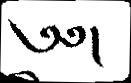༄༅།
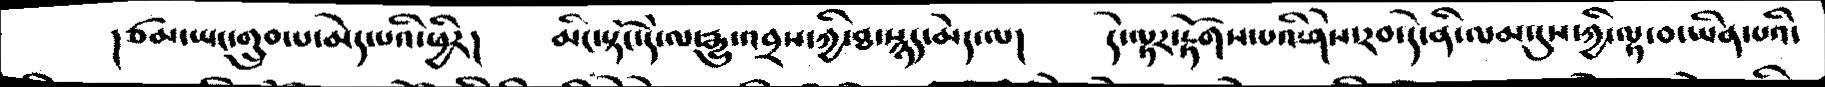།ཙམ་ཡང་གྲུབ་པ་མེད་པའི་ཕྱིར།   མིང་སྟོང་དེ་ལ་རྒྱུ་འབྲས་ཀྱི་ཐ་སྙད་མེད་ལ།    དེ་ལྟར་རྟོགས་པའི་ཤེས་རབ་དེ་ནི་ལམ་དུས་ཀྱི་ལྟ་བ་ཡིན་པའི་
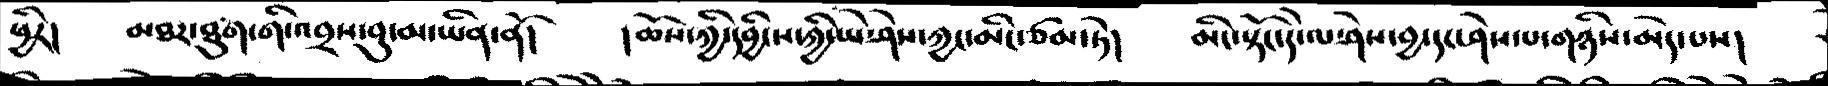ཕྱིར།    མཐར་ཐུག་གི་འབྲས་བུ་མ་ཡིན་ནོ།   །ཆོས་ཀྱི་དབྱིངས་ཀྱི་ཡེ་ཤེས་ཀྱང་མིང་ཙམ་ཏེ།   མིང་སྟོང་དེ་ལ་ཤེས་བྱ་དང་ཤེས་པ་གཉིས་མེད་པས།
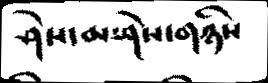ཤེས་མ་ཤེས་གཉིས
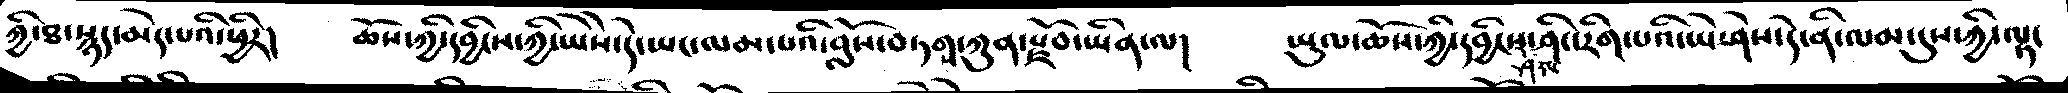ཀྱི་ཐ་སྙད་མེད་པའི་ཕྱིར།     ཆོས་ཀྱི་དབྱིངས་ཀྱི་ཡཻས་དེ་ཡང་ལམ་པའི་བློས་བཏགས་ཀུན་རྫོབ་ཡིན་ལ།   ཡུལ་ཆོས་ཀྱི་དབྱིངས་ཤེས་ཤིང་རིག་པའི་ཡེ་ཤེས་དེ་ནི་ལམ་དུས་ཀྱི་ལྟ་
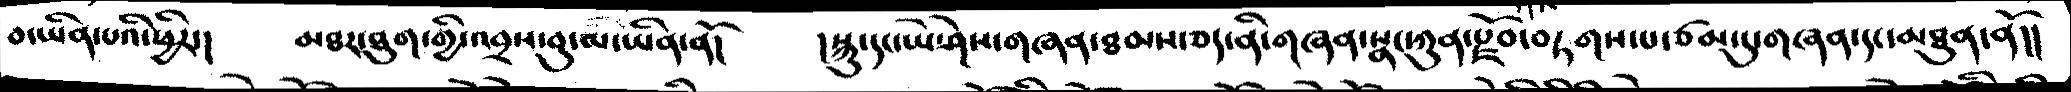བ་ཡིན་པའི་ཕྱིར་།    མཐར་ཐུག་གྱི་འབྲས་བུ་ལ་ཡིན་ནོ།   །སྐུ་དང་ཡེ་ཤེས་གཞན་ཐམས་ཅད་ནི་གཞན་སྣང་ཀུན་རྫོབ་བཏགས་པ་ཙམ་དུ་གཞན་དང་མཐུན་ནོ།།
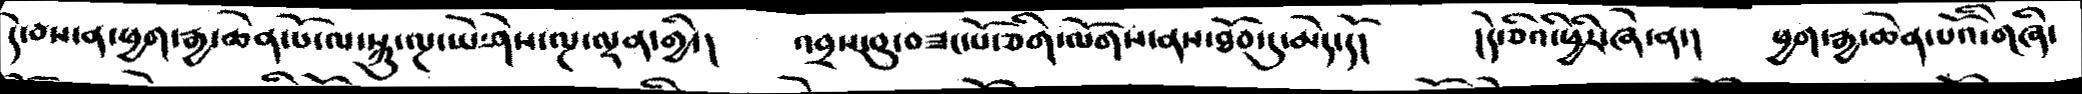དེ་བས་ན་ཕྱག་རྒྱ་ཆེན་པོ་ལ་སྐུ་ལྔ་ཡེ་ཤེས་ལྔ་ལྡན་གྱི་།    འབྲས་བུ་བཟང་པོ་ཅིག་ལོགས་ནས་ཐོབ་དུ་མེད་དོ།   །དེ་ཅིའི་ཕྱིར་ཞེ་ན་།   ཕྱག་རྒྱ་ཆེན་པོའི་གཞི་
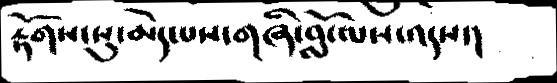རྟོགས་སུ་མེད་པས་གཞི་བློ་ལས་འདས་།
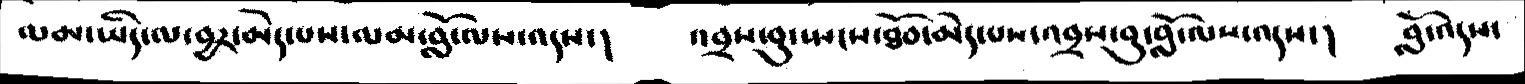ལམ་ཡིད་ལ་བྱར་མེད་པས་ལམ་བློ་ལས་འདས་།   འབྲས་བུ་སྤངས་ཐོབ་མེད་པས་འབྲས་བུ་བློ་ལས་འདས་།  བློ་འདས་
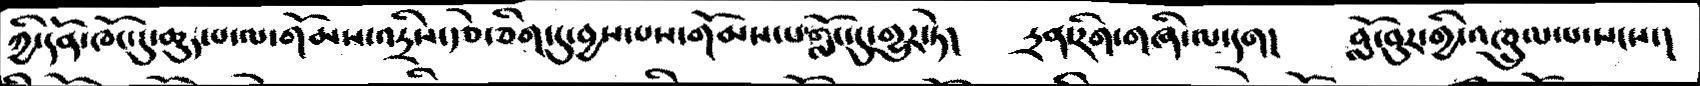ཀྱི་དོན་ཁོང་དུ་ཆུད་པ་ལ་གོམས་འདྲིས་རྩེ་ཅིག་དུ་བྱས་པས་གོམས་པ་གློང་དུ་གྱུར་ཏེ།    དྲན་རིག་གཞི་ལ་དག།   བློ་བུར་གྱི་འཁྲུལ་པ་སངས་།
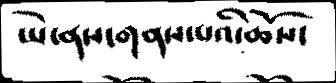ཡེ་ནས་གནས་པའི་ཆོས་
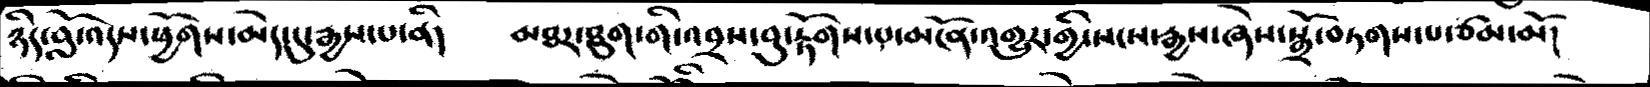ཉིད་བློ་འདས་ཕྱོགས་མེད་དུ་རྒྱས་པ་ནི།   མཐར་ཐུག་གི་འབྲས་བུ་རྟོགས་པ་མངོན་འགྱུར་གྱི་སངས་རྒྱས་ཞེས་སྒྲོ་བཏགས་པ་ཙམ་མོ།
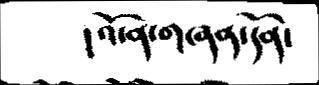།འོ་ན་གཞན་དོན་
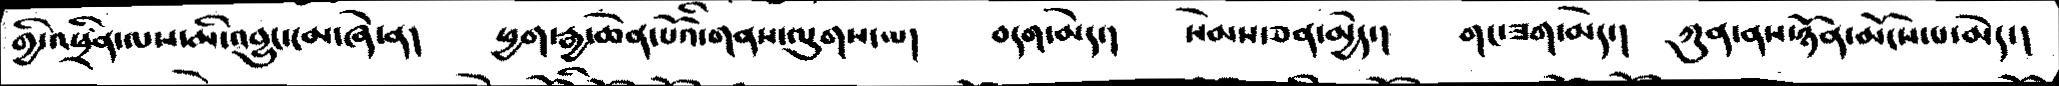གྱི་འཕྲིན་ལས་མི་འབྱུང་ངམ་ཞེ་ན།  ཕྱག་རྒྱ་ཆེན་པོའི་གནས་ལུགས་ལ།   བདག་མེད་།   སེམས་ཅན་མྱེད་།   གང་ཟག་མེད་།   ཀུན་ནས་ཉོན་མོངས་པ་མེད་།
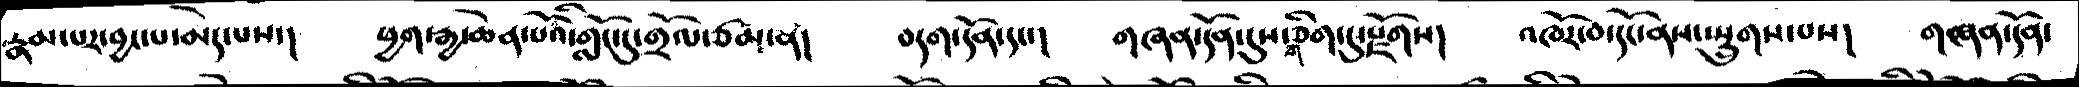རྣམ་པར་བྱང་པ་མེད་པས་།   ཕྱག་རྒྱ་ཆེན་པོའི་གློང་དུ་གྲོལ་ཙམ་ན།   བདག་དོན་དང་།  གཞན་དོན་དུས་གཅིག་དུ་རྫོགས།  འཁོར་བ་དོང་ནས་སྤྲུགས་པས།   གཞན་དོན་
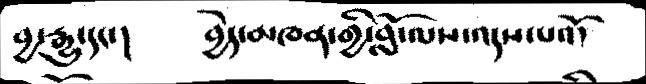བྱ་རྒྱུ་དང་།   བྱེད་མཁན་གྱི་བློ་ལས་འདས་པའོ།
